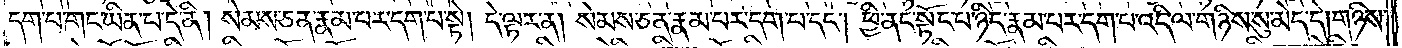དག་པ་གང་ཡིན་པ་དེ་ནི། སེམས་ཅན་རྣམ་པར་དག་པ་སྟེ། དེ་ལྟར་ན། སེམས་ཅན་རྣམ་པར་དག་པ་དང༌། ཕྱི་ནང་སྟོང་པ་ཉིད་རྣམ་པར་དག་པ་འདི་ལ་གཉིས་སུ་མེད་དེ། གཉིས་
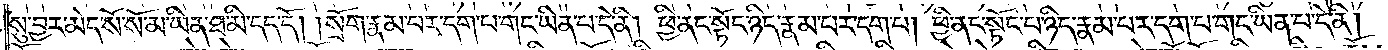སུ་བྱར་མེད་སོ་སོ་མ་ཡིན་ཐ་མི་དད་དོ། །སྲོག་རྣམ་པར་དག་པ་གང་ཡིན་པ་དེ་ནི། ཕྱི་ནང་སྟོང་པ་ཉིད་རྣམ་པར་དག་པ། ཕྱི་ནང་སྟོང་པ་ཉིད་རྣམ་པར་དག་པ་གང་ཡིན་པ་དེ་ནི།
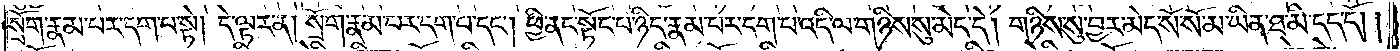སྲོག་རྣམ་པར་དག་པ་སྟེ། དེ་ལྟར་ན། སྲོག་རྣམ་པར་དག་པ་དང༌། ཕྱི་ནང་སྟོང་པ་ཉིད་རྣམ་པར་དག་པ་འདི་ལ་གཉིས་སུ་མེད་དེ། གཉིས་སུ་བྱར་མེད་སོ་སོ་མ་ཡིན་ཐ་མི་དད་དོ། །
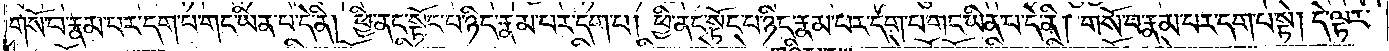གསོ་བ་རྣམ་པར་དག་པ་གང་ཡིན་པ་དེ་ནི། ཕྱི་ནང་སྟོང་པ་ཉིད་རྣམ་པར་དག་པ། ཕྱི་ནང་སྟོང་པ་ཉིད་རྣམ་པར་དག་པ་གང་ཡིན་པ་དེ་ནི། གསོ་བ་རྣམ་པར་དག་པ་སྟེ། དེ་ལྟར་
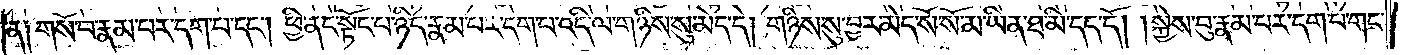ན། གསོ་བ་རྣམ་པར་དག་པ་དང༌། ཕྱི་ནང་སྟོང་པ་ཉིད་རྣམ་པར་དག་པ་འདི་ལ་གཉིས་སུ་མེད་དེ། གཉིས་སུ་བྱར་མེད་སོ་སོ་མ་ཡིན་ཐ་མི་དད་དོ། །སྐྱེས་བུ་རྣམ་པར་དག་པ་གང་
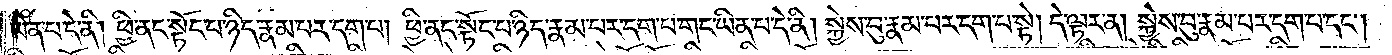ཡིན་པ་དེ་ནི། ཕྱི་ནང་སྟོང་པ་ཉིད་རྣམ་པར་དག་པ། ཕྱི་ནང་སྟོང་པ་ཉིད་རྣམ་པར་དག་པ་གང་ཡིན་པ་དེ་ནི། སྐྱེས་བུ་རྣམ་པར་དག་པ་སྟེ། དེ་ལྟར་ན། སྐྱེས་བུ་རྣམ་པར་དག་པ་དང༌།
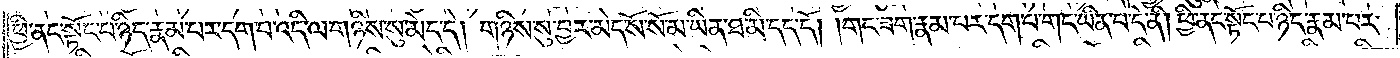ཕྱི་ནང་སྟོང་པ་ཉིད་རྣམ་པར་དག་པ་འདི་ལ་གཉིས་སུ་མེད་དེ། གཉིས་སུ་བྱར་མེད་སོ་སོ་མ་ཡིན་ཐ་མི་དད་དོ། །གང་ཟག་རྣམ་པར་དག་པ་གང་ཡིན་པ་དེ་ནི། ཕྱི་ནང་སྟོང་པ་ཉིད་རྣམ་པར་
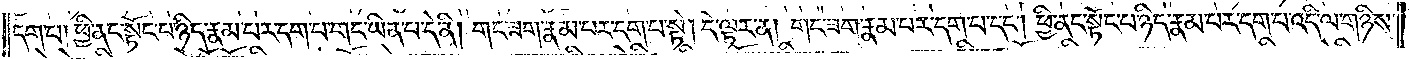དག་པ། ཕྱི་ནང་སྟོང་པ་ཉིད་རྣམ་པར་དག་པ་གང་ཡིན་པ་དེ་ནི། གང་ཟག་རྣམ་པར་དག་པ་སྟེ། དེ་ལྟར་ན། གང་ཟག་རྣམ་པར་དག་པ་དང༌། ཕྱི་ནང་སྟོང་པ་ཉིད་རྣམ་པར་དག་པ་འདི་ལ་གཉིས་
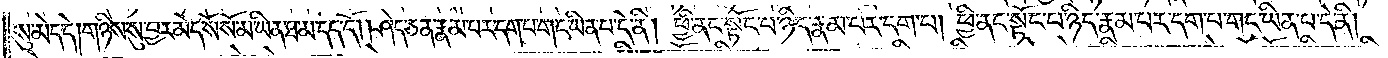སུ་མེད་དེ། གཉིས་སུ་བྱར་མེད་སོ་སོ་མ་ཡིན་ཐ་མི་དད་དོ། །ཤེད་ཅན་རྣམ་པར་དག་པ་གང་ཡིན་པ་དེ་ནི། ཕྱི་ནང་སྟོང་པ་ཉིད་རྣམ་པར་དག་པ། ཕྱི་ནང་སྟོང་པ་ཉིད་རྣམ་པར་དག་པ་གང་ཡིན་པ་དེ་ནི།
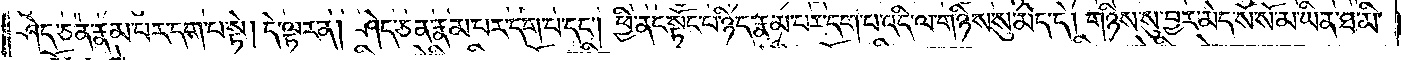ཤེད་ཅན་རྣམ་པར་དག་པ་སྟེ། དེ་ལྟར་ན། ཤེད་ཅན་རྣམ་པར་དག་པ་དང༌། ཕྱི་ནང་སྟོང་པ་ཉིད་རྣམ་པར་དག་པ་འདི་ལ་གཉིས་སུ་མེད་དེ། གཉིས་སུ་བྱར་མེད་སོ་སོ་མ་ཡིན་ཐ་མི་
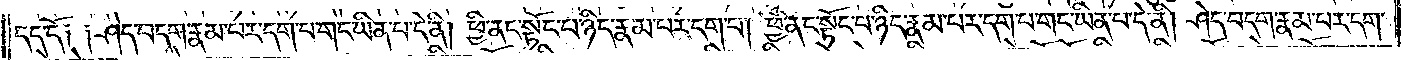དད་དོ། །ཤེད་བདག་རྣམ་པར་དག་པ་གང་ཡིན་པ་དེ་ནི། ཕྱི་ནང་སྟོང་པ་ཉིད་རྣམ་པར་དག་པ། ཕྱི་ནང་སྟོང་པ་ཉིད་རྣམ་པར་དག་པ་གང་ཡིན་པ་དེ་ནི། ཤེད་བདག་རྣམ་པར་དག་
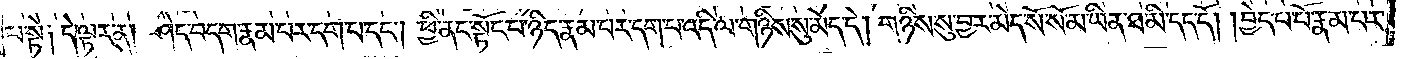པ་སྟེ། དེ་ལྟར་ན། ཤེད་བདག་རྣམ་པར་དག་པ་དང༌། ཕྱི་ནང་སྟོང་པ་ཉིད་རྣམ་པར་དག་པ་འདི་ལ་གཉིས་སུ་མེད་དེ། གཉིས་སུ་བྱར་མེད་སོ་སོ་མ་ཡིན་ཐ་མི་དད་དོ། །བྱེད་པ་པོ་རྣམ་པར་
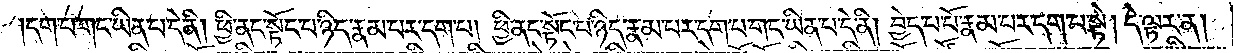དག་པ་གང་ཡིན་པ་དེ་ནི། ཕྱི་ནང་སྟོང་པ་ཉིད་རྣམ་པར་དག་པ། ཕྱི་ནང་སྟོང་པ་ཉིད་རྣམ་པར་དག་པ་གང་ཡིན་པ་དེ་ནི། བྱེད་པ་པོ་རྣམ་པར་དག་པ་སྟེ། དེ་ལྟར་ན།
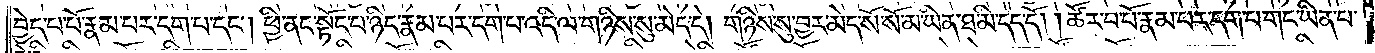བྱེད་པ་པོ་རྣམ་པར་དག་པ་དང༌། ཕྱི་ནང་སྟོང་པ་ཉིད་རྣམ་པར་དག་པ་འདི་ལ་གཉིས་སུ་མེད་དེ། གཉིས་སུ་བྱར་མེད་སོ་སོ་མ་ཡིན་ཐ་མི་དད་དོ། །ཚོར་བ་པོ་རྣམ་པར་དག་པ་གང་ཡིན་པ་
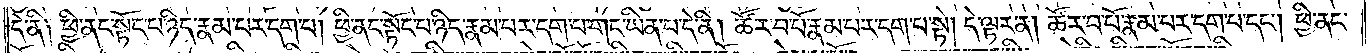དེ་ནི། ཕྱི་ནང་སྟོང་པ་ཉིད་རྣམ་པར་དག་པ། ཕྱི་ནང་སྟོང་པ་ཉིད་རྣམ་པར་དག་པ་གང་ཡིན་པ་དེ་ནི། ཚོར་བ་པོ་རྣམ་པར་དག་པ་སྟེ། དེ་ལྟར་ན། ཚོར་བ་པོ་རྣམ་པར་དག་པ་དང༌། ཕྱི་ནང་
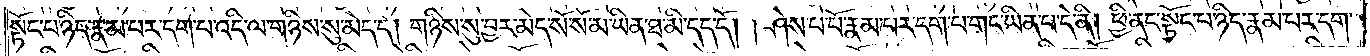སྟོང་པ་ཉིད་རྣམ་པར་དག་པ་འདི་ལ་གཉིས་སུ་མེད་དེ། གཉིས་སུ་བྱར་མེད་སོ་སོ་མ་ཡིན་ཐ་མི་དད་དོ། །ཤེས་པ་པོ་རྣམ་པར་དག་པ་གང་ཡིན་པ་དེ་ནི། ཕྱི་ནང་སྟོང་པ་ཉིད་རྣམ་པར་དག་
